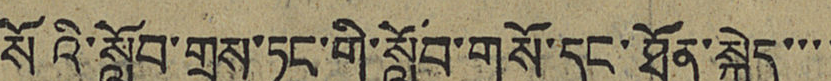སོའི་སློབ་གྲྭ་ཏང་གི་སློབ་གསོ་དང་ཐོན་སྐྱེད་་་་
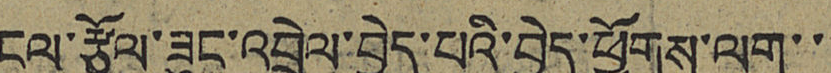ངལ་རྩོལ་ཟུང་འབྲེལ་བྱེད་པའི་བྱེད་ཕྱོགས་ལག་་་
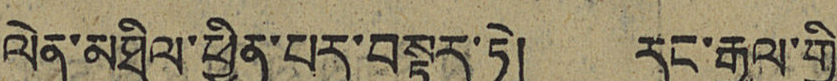ལེན་མཐིལ་ཕྱིན་པར་བསྟར་ཏེ། རང་རྒྱལ་གྱི་
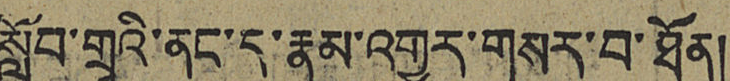སློབ་གྲྭའི་ནང་དུ་རྣམ་འགྱུར་གསར་བ་ཐོན།
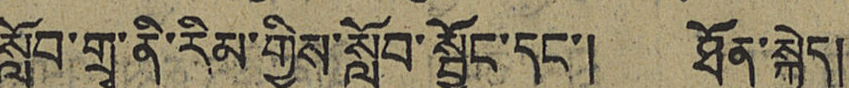སློབ་གྲྭ་ནི་རིམ་གྱིས་སློབ་སྦྱོང་དང་། ཐོན་སྐྱེད།
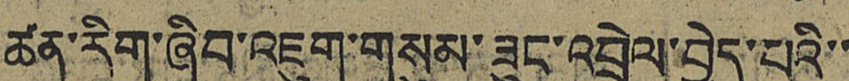ཚན་རིག་ཞིབ་འཇུག་གསུམ་ཟུང་འབྲེལ་བྱེད་པའི་་
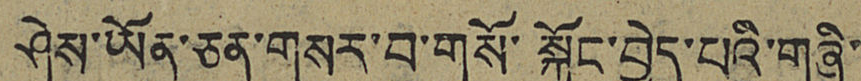ཤེས་ཡོན་ཅན་གསར་བ་གསོ་སྐྱོང་བྱེད་པའི་གཞི་
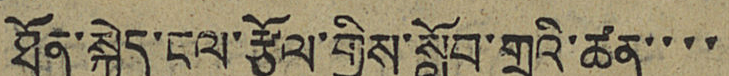ཐོན་སྐྱེད་ངལ་རྩོལ་གྱིས་སློབ་གྲྭའི་ཚན་་་་
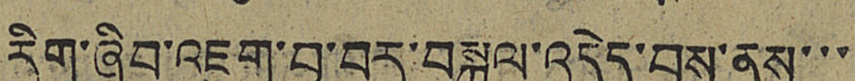རིག་ཞིབ་འཇུག་བྱ་བར་བསྐུལ་འདེད་བྱས་ནས་་་
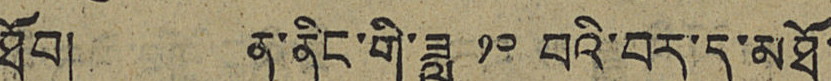ཐོབ། ན་ནིང་གི་ཟླ ༡༠ བའི་བར་དུ་མཐོ་
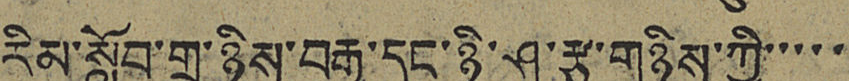རིམ་སློབ་གྲྭ་ཉིས་བརྒྱ་དང་ཉི་ཤུ་རྩ་གཉིས་ཀྱི་་་་་
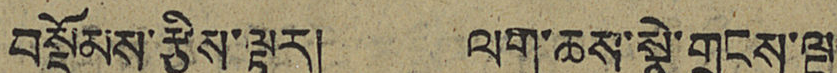བསྡོམས་རྩིས་ལྟར། ལག་ཆས་སྣེ་གྲངས་ལྔ་
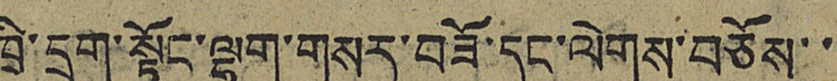ཁྲི་དྲུག་སྟོང་ལྷག་གསར་བཟོ་དང་ལེགས་བཅོས་་
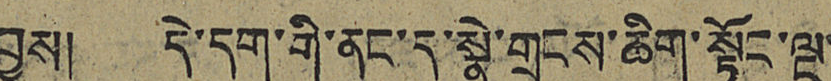བྱས། དེ་དག་གི་ནང་དུ་སྣེ་གྲངས་ཆིག་སྟོང་ལྔ་
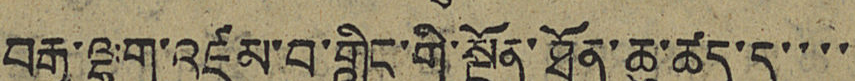བརྒྱ་ལྷག་འཛམ་བུ་གླིང་གི་སྔོན་ཐོན་ཆུ་ཚད་དུ་་་་
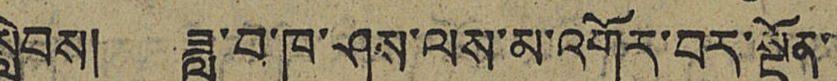སླེབས། ཟླ་བ་ཁ་ཤས་ལས་མ་འགོར་བར་སྔོན་
